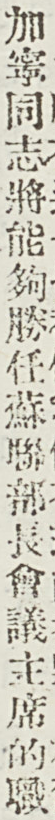加寧同志將能夠勝任蘇聯部長會議主席的職
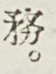務。
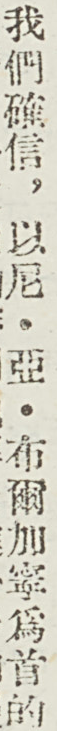我們確信，以尼・亞・布爾加寧爲首的
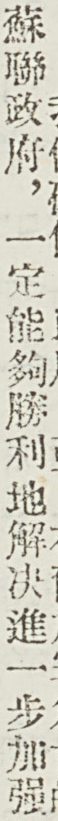蘇聯政府，一定能夠勝利地解決進一步加強
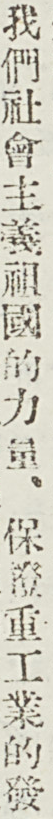我們社會主義祖國的力量、保證重工業的發
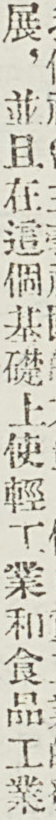展，並且在這個基礎上使輕工業和食品工業
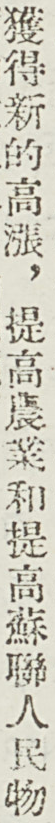獲得新的高漲，提高農業和提高蘇聯人民物
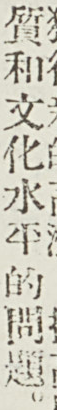質和文化水平的問題。
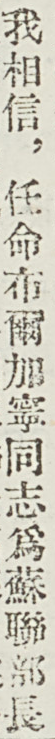我相信，任命布爾加寧同志爲蘇聯部長
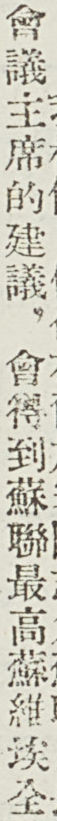會議主席的建議，會得到蘇聯最高蘇維埃全
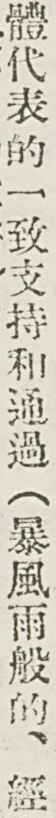體代表的一致支持和通過（暴風雨般的、經
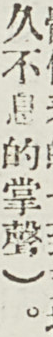久不息的掌聲）。
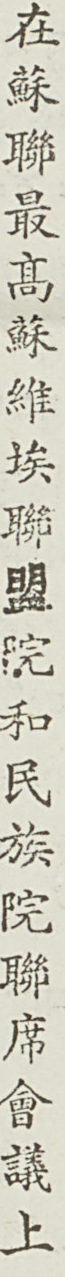在蘇聯最高蘇維埃聯盟院和民族院聯席會議上
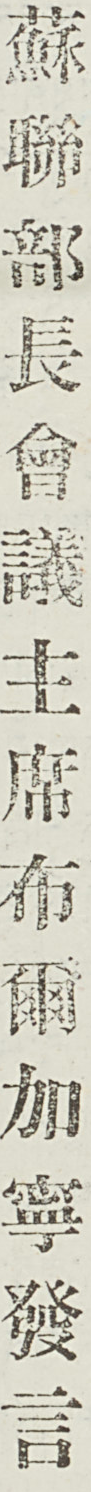蘇聯部長會議主席布爾加寧發言
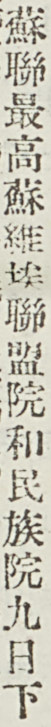蘇聯最高蘇維埃聯盟院和民族院九日下
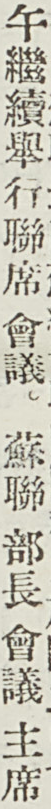午繼續舉行聯席會議。蘇聯部長會議主席
